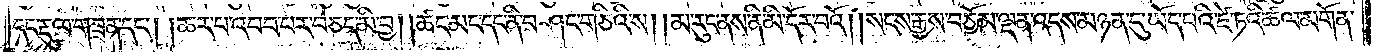དང་རྡུལ་གཟན་དང༌། །ཆར་པ་འབབ་པར་བཅད་མི་བྱ། །ཚང་མང་དང་ནི་བཤང་གཅིའི་ས། །མ་རུང་ནས་ནི་མི་དོར་བའོ། །སངས་རྒྱས་བཅོམ་ལྡན་འདས་མཉན་དུ་ཡོད་པའི་ཛེ་ཏའི་ཚལ་མགོན་
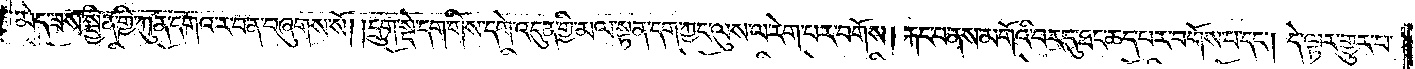མེད་ཟས་སྦྱིན་གྱི་ཀུན་དགའ་ར་བ་ན་བཞུགས་སོ། །དྲུག་སྡེ་དག་གིས་དགེ་འདུན་གྱི་མལ་སྟན་དག་ཀྱང་ལུས་ལ་རེག་པར་བགོས། རྐང་པ་ནས་མགོའི་བར་དུ་ཐང་ཆད་པར་བགོས་པ་དང༌། དེ་ལྟར་གྱུར་པ་
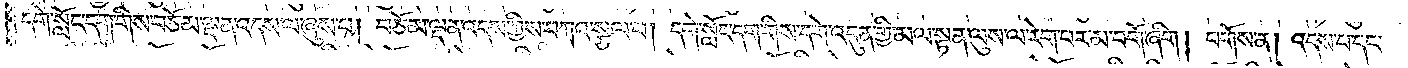དགེ་སློང་དག་གིས་བཅོམ་ལྡན་འདས་ལ་ཞུས་པ། བཅོམ་ལྡན་འདས་ཀྱིས་བཀའ་སྩལ་པ། དགེ་སློང་དག་གིས་དགེ་འདུན་གྱི་མལ་སྟན་ལུས་ལ་རེག་པར་མ་བགོ་ཞིག །བགོས་ན། འདས་པ་དང་
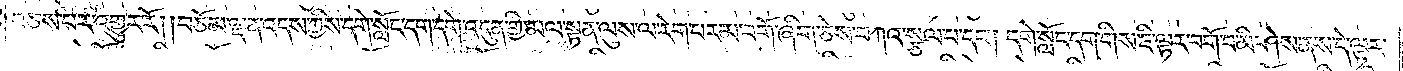བཅས་པར་འགྱུར་རོ། །བཅོམ་ལྡན་འདས་ཀྱིས་དགེ་སློང་དག་དགེ་འདུན་གྱི་མལ་སྟན་ལུས་ལ་རེག་པར་མ་བགོ་ཞིག་ཅེས་བཀའ་སྩལ་པ་དང༌། དགེ་སློང་དག་གིས་ཇི་ལྟར་བགོ་བ་མི་ཤེས་ནས་དེ་ལྟར་
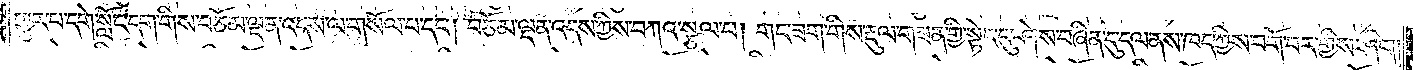གྱུར་པ་དགེ་སློང་དག་གིས་བཅོམ་ལྡན་འདས་ལ་གསོལ་པ་དང༌། བཅོམ་ལྡན་འདས་ཀྱིས་བཀའ་སྩལ་པ། གང་ཟག་གིས་རྡུལ་གཟན་གྱི་སྟེང་དུ་ཤེས་བཞིན་དུ་དལ་ནས་ཁད་ཀྱིས་བགོ་བར་གྱིས་ཤིག །
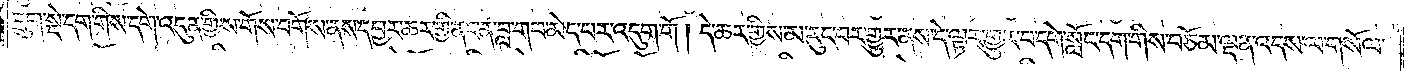དྲུག་སྡེ་དག་གིས་དགེ་འདུན་གྱིས་གོས་བགོས་ནས་དབྱར་ཆར་གྱི་ནང་ན་བླ་གབ་མེད་པར་འདུག་གོ། དེ་ཆར་གྱིས་མ་རུང་བར་གྱུར་ནས་དེ་ལྟར་གྱུར་པ་དགེ་སློང་དག་གིས་བཅོམ་ལྡན་འདས་ལ་གསོལ་
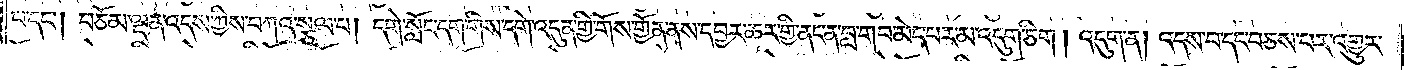པ་དང༌། བཅོམ་ལྡན་འདས་ཀྱིས་བཀའ་སྩལ་པ། དགེ་སློང་དག་གིས་དགེ་འདུན་གྱི་གོས་གྱོན་ནས་དབྱར་ཆར་གྱི་ནང་ན་བླ་གབ་མེད་པར་མ་འདུག་ཅིག །འདུག་ན། འདས་པ་དང་བཅས་པར་འགྱུར་
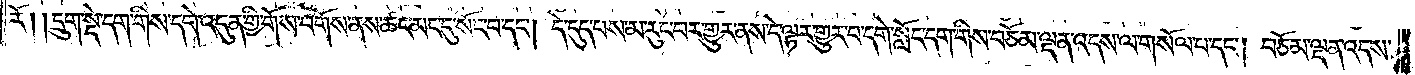རོ། །དྲུག་སྡེ་དག་གིས་དགེ་འདུན་གྱི་གོས་བགོས་ནས་ཚང་མང་དུ་སོང་བ་དང༌། དེ་དུད་པས་མ་རུང་བར་གྱུར་ནས་དེ་ལྟར་གྱུར་པ་དགེ་སློང་དག་གིས་བཅོམ་ལྡན་འདས་ལ་གསལ་པ་དང༌། བཅོམ་ལྡན་འདས་
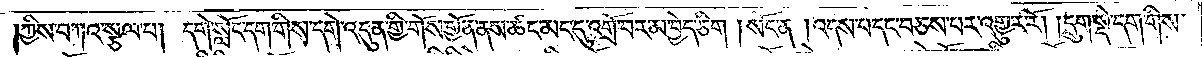ཀྱིས་བཀའ་སྩལ་པ། དགེ་སློང་དག་གིས་དགེ་འདུན་གྱི་གོས་གྱོན་ནས་ཚང་མང་དུ་འགྲོ་བར་མ་བྱེད་ཅིག །སོང་ན། འདས་པ་དང་བཅས་པར་འགྱུར་རོ། །དྲུག་སྡེ་དག་གིས་
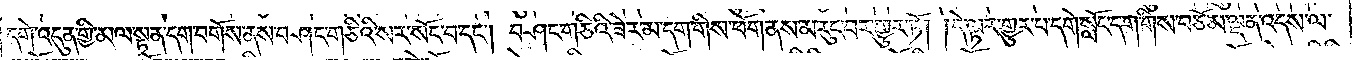དགེ་འདུན་གྱི་མལ་སྟན་དག་བགོས་ནས་བཤང་གཅིའི་སར་སོང་བ་དང༌། བཤང་གཅིའི་ཟེར་མ་དག་གིས་ཕོག་ནས་མ་རུང་བར་གྱུར་ཏོ། །དེ་ལྟར་གྱུར་པ་དགེ་སློང་དག་གིས་བཅོམ་ལྡན་འདས་ལ་
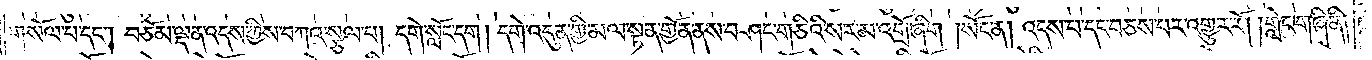གསོལ་པ་དང༌། བཅོམ་ལྡན་འདས་ཀྱིས་བཀའ་སྩལ་པ། དགེ་སློང་དག །དགེ་འདུན་གྱི་མལ་སྟན་གྱོན་ནས་བཤང་གཅིའི་སར་མ་འགྲོ་ཞིག །སོང་ན། འདས་པ་དང་བཅས་པར་འགྱུར་རོ། །གླེང་གཞི་ནི།
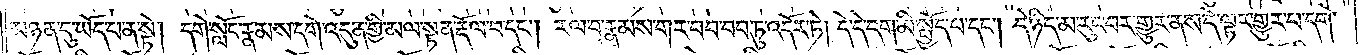མཉན་དུ་ཡོད་པ་ན་སྟེ། དགེ་སློང་རྣམས་དགེ་འདུན་གྱི་མལ་སྟན་རྡོལ་བ་དང༌། རལ་པ་རྣམས་གར་བབ་བབ་ཏུ་འདོར་ཏེ། དེ་དེ་དག་མི་སྤྱོད་པ་དང༌། དེ་ཉིད་མ་རུང་བར་གྱུར་ནས་དེ་ལྟར་གྱུར་པ་དགེ་
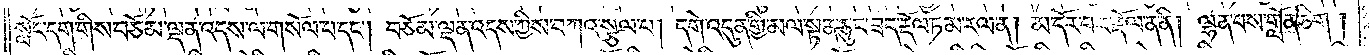སློང་དག་གིས་བཅོམ་ལྡན་འདས་ལ་གསོལ་པ་དང༌། བཅོམ་ལྡན་འདས་ཀྱིས་བཀའ་སྩལ་པ། དགེ་འདུན་གྱི་མལ་སྟན་ཅུང་ཟད་རྡོལ་ཏམ་རལ་ན། མ་དོར་བར་རྡོལ་ན་ནི། ལྷན་པས་གློན་ཅིག །
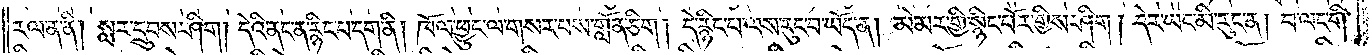རལ་ན་ནི། སླར་དྲུབས་ཤིག །དེའི་ནང་ན་རྙིང་པ་དག་ནི། ཁོལ་ཕྱུང་ལ་གསར་པས་གློན་ཅིག །དེ་རྙིང་པ་ལས་རུང་བ་ཡོད་ན། མེ་མར་གྱི་སྙིང་པོར་གྱིས་ཤིག །དེར་ཡང་མི་རུང་ན། བ་ལང་གི་
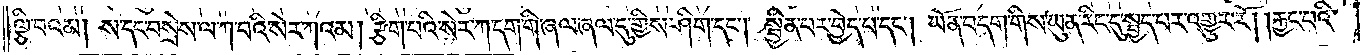ལྕི་བའམ། ས་དང་བསྲེས་ལ་ཀ་བའི་སེར་ཀའམ། རྩིག་པའི་སེར་ཀ་དག་གི་ཞལ་ཞལ་དུ་གྱིས་ཤིག་དང༌། སྦྱིན་པར་བྱེད་པ་དང༌། ཡོན་བདག་གིས་ཡུན་རིང་དུ་སྤྱད་པར་འགྱུར་རོ། །རྐྱང་པའི་
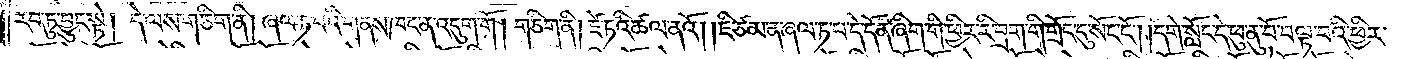རབ་ཏུ་བྱུང་སྟེ། དེ་ལས་གཅིག་ནི། ཞལ་ཏ་བའི་གནས་ཁང་ན་འདུག་གོ། གཅིག་ནི། ཛེ་ཏའི་ཚལ་ནའོ། །ཇི་ཙམ་ན་ཞལ་ཏ་པ་དེ་དོན་ཞིག་གི་ཕྱིར་རི་བྲག་གི་གྲོང་དུ་སོང་ངོ༌། །དགེ་སློང་དེ་ཕུ་ནུ་བོ་བལྟ་བའི་ཕྱིར་
